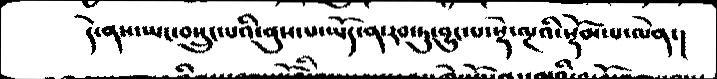དེ་ནས་ཡང་བསྲུང་པའི་ནུས་པ་ཡོད་ན་རབ་ཏུ་བྱུང་པ་སྡེ་ལྔའི་སྡོམ་པ་ལེན་།
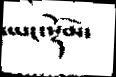་ཡང་སྡོམ་
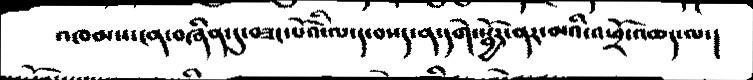འཁམས་ངན་བཞིན་དུ་བཟང་པོའ་ལི་ད་བསད་ན་དགེ་སྦྱོར་ནར་མའི་འཕྲོ་འཆད་ལ་།
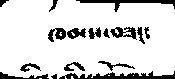ཁམས་བཟང་
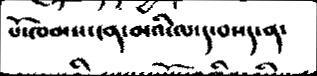པོ་ཁམས་ངན་མའི་ལ་ད་བསད་ན་
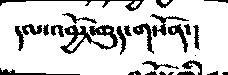དལ་འབྱོར་ཆུད་གསོན་།
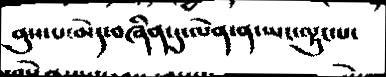ནུས་པ་མེད་བཞིན་དུ་ལེན་ན་ཡང་ལྟུང་པ་
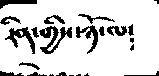རིན་གྱིས་ཉོ་ལ།
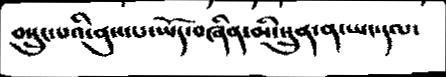བསྲུང་པའི་ནུས་པ་ཡོད་བཞིན་མི་སྲུན་ན་ཡང་དལ་
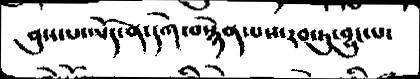ནུས་པ་ཡོད་ན་དགེ་བསྙེན་པས་རབ་ཏུ་བྱུང་པ་
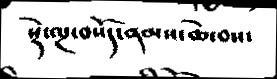སྡེ་ལྔ་བསོད་ནམས་ཆེ་བས་
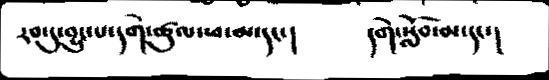རབ་་དུ་བྱུང་པ་དགེ་ཚུལ་ཕ་མ་དང་།  དགེ་སློབ་མ་དང་།
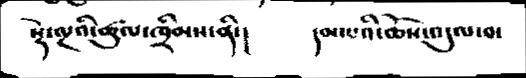སྡེ་ལྔའི་ཚུལ་ཁྲིམས་ནི་།  དམ་པའི་ཆོས་འདུལ་བ་
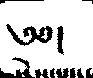༄༅།
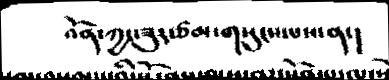འོན་ཀྱང་ཟུར་ཙམ་གསུངས་པས་ན་།
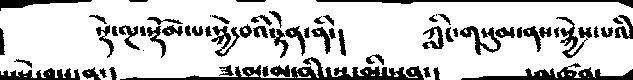སྡེ་ལྔ་སྡོམ་པ་སྐྱེ་བའི་རྟེན་ནི་།   ཀླིང་གསུམ་ནས་སྐྱེས་པའི་
